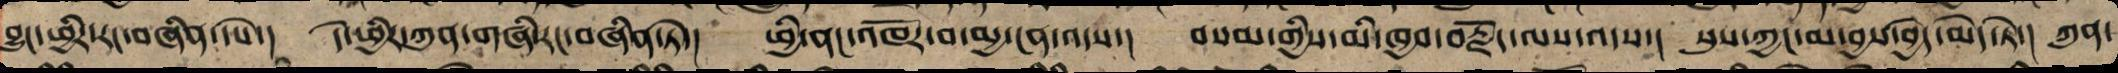བྱུང་ཕྱིར་རང་བཞིན་དཔེ་། དེ་ཕྱིར་ཀུན་གཞི་རང་བཞིན་ཏེ་། ཕྱི་ནང་འཁོར་བ་མྱ་ངན་འདས་། བསམ་གྱིས་མི་ཁྱབ་བརྗོད་ལས་འདས་། སུས་ཀྱང་མ་བྱས་བྱེད་མེད་ཏེ་། ཀུན་
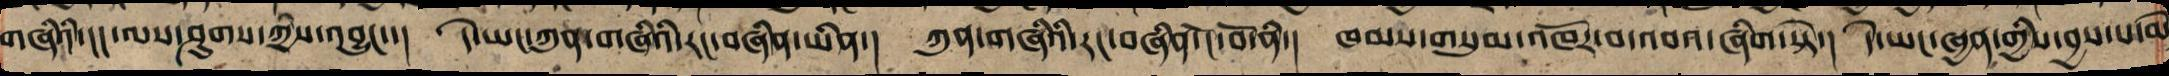གཞིའི་ངང་ལས་ཤུགས་ཀྱིས་འབྱུང་་། དེ་ཡང་ཀུན་གཞིའི་རང་བཞིན་ཡིན་། ཀུན་གཞིའི་རང་བཞིན་ངོ་བོ་ནི་། ཁམས་གསུམ་འཁོར་བ་འབའ་ཞིག་སྟེ་། དེ་ཡང་ཞྱན་གྱིས་བྱས་པ་མེ
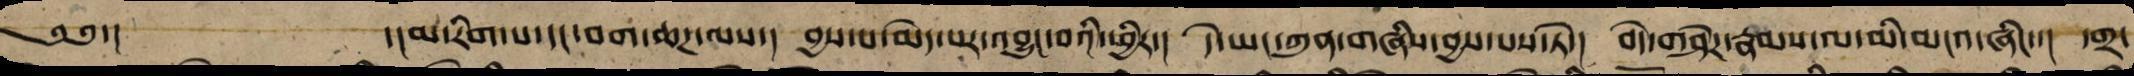༄༅་། ་།མ་རིག་པ་དང་བག་ཆཌ་ལས་། བྱས་པ་མེད་པར་འབྱུང་བའི་ཕྱིར་། དེ་ཡང་ཀུན་གཞིས་བྱས་པ་སྟེ་། བདེར་གཤེཌ་རྣམས་ལ་མི་མངའ་ཞིང་་། དགྲ་
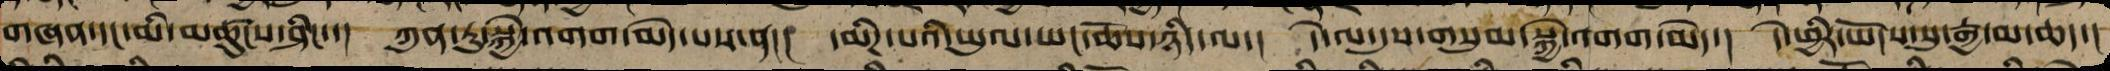གཞན་དང་མི་མཚུངས་ཤིང་་། ཀུན་ཏུ་སྐྱེ་འགགས་མེད་པས་ན་། དམིཌ་པའི་ཡུལ་ཡང་ཆོས་ཉིད་ལ་། དེ་ལ་དུས་གསུམ་སྐྱེ་འགགས་མེད་། དེ་ཕྱིར་ཡོངས་སུ་རྒྱ་མ་ཆད་།
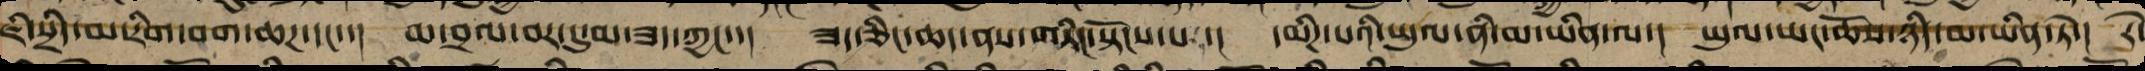ཇི་སྲིད་མ་རིག་བག་ཆཌ་དང་་། མ་བྲལ་བར་དུ་མ་ཟད་ཀྱང་་། ཟད་ཅིང་ཆད་ནས་གཏིང་སྟོངས་པར་། དམིཌ་པའི་ཡུལ་ནི་མ་ཡིན་ལ་། ཡུལ་ཡང་ཆོས་ཉིད་མ་ཡིན་ཏེ་། རེ་
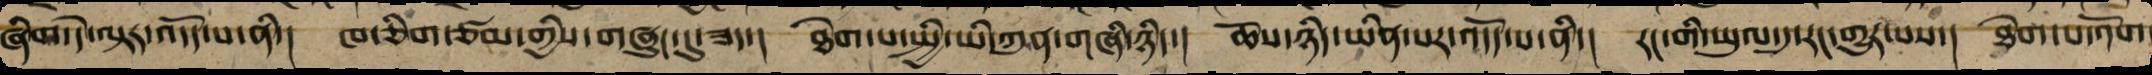ཞིག་དེ་ལྟར་འདོད་པ་ནི་། ཁ་ཅིག་ཙམ་གྱི་གཞུང་དུ་ཟད་། ཐེག་པ་སྤྱི་ཡི་ཀུན་གཞི་ཉིད་། ཆོས་ཉིད་ཡིན་པར་འདོད་པ་ནི་། རང་གི་ཡུལ་དུ་རང་གྱུར་པས་། ཐེག་པ་འོག
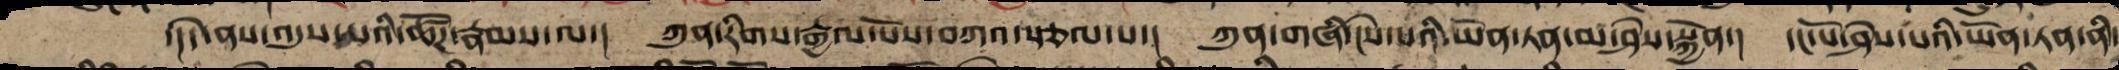་།།དེ་ནས་འདུས་པའི་ཚོཌ་རྣམས་ལ་། ཀུན་རིག་རྒྱལ་པོས་བཀའ་སྩལ་པ་། ཀུན་གཞི་ངེས་པའི་ཡོན་ཏན་མ་ཤེས་སྐྱོན་། དང་པོ་ཤེས་པའི་ཡོན་ཏན་ནི་
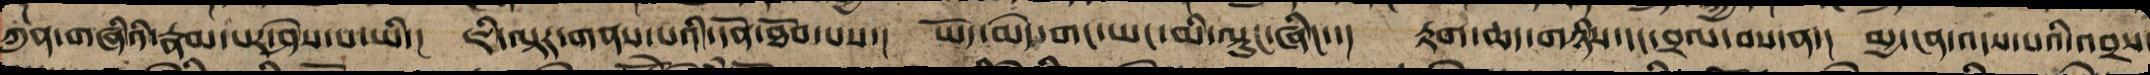ཀུན་གཞིའི་རྣམ་པར་ཤེས་པ་ཡི་། ཇི་ལྟར་གནས་པའི་དོན་ཐོབ་པས་། ཡོད་མེད་གང་ཡང་མི་ལྟུང་ཞིང་་། རྟག་ཆད་གཉིས་དང་བྲལ་བས་ན་། མྱ་ངན་འདས་པའི་འབྲས
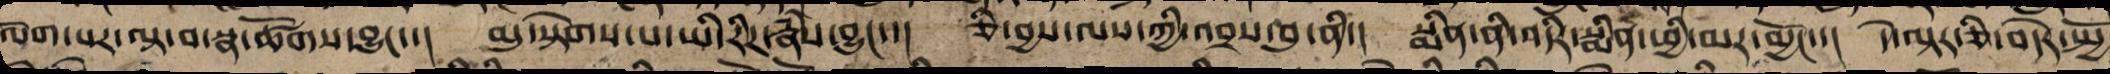ལོག་པར་ལྟ་བ་སྣ་ཚོགས་བྱུང་་། མུ་སྟེགས་ཆད་པའི་རིཌ་རྣཾས་བྱུང་་། ཅི་བྱས་ལས་ཀྱི་འབྲས་བུ་ནི་། སྨིན་ནི་འདིར་སྨིན་ཕྱི་མར་མྱོང་་། དེ་ལྟར་ཅི་བདེར་སྤྱོ
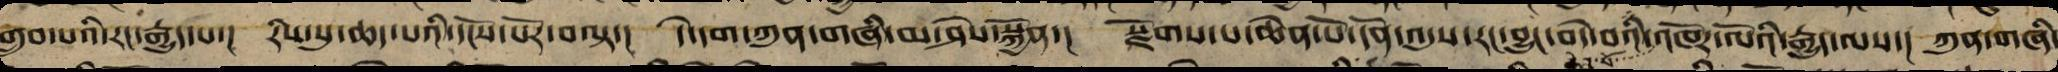གྲུབ་པའི་རང་རྒྱུད་པ་། རིས་སུ་ཆད་པའི་དངོས་པོར་བལྟ་། དེ་དག་ཀུན་གཞི་མ་ཤེས་སྐྱོན་། སྫོགས་པ་ཆེན་པོ་དོན་འདུས་རང་བྱུང་བདེ་བ་ཆེན་པོ་འཁོར་ལོའི་རྒྱུད་ལས་། ཀུན་གཞི་
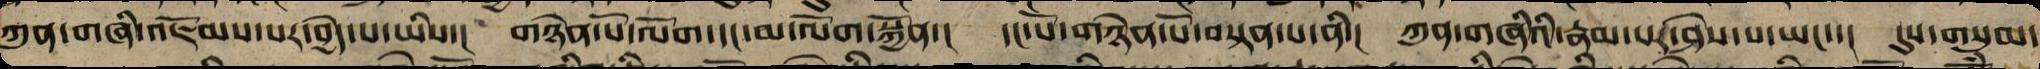ཀུན་གཞི་འཇོམས་པར་བྱེད་པ་ཡི་། གཉེན་པོ་ལོག་དང་མ་ལོག་སྐྱོན་། དང་པོ་གཉེན་པོ་བསྟན་པ་ནི་། ཀུན་གཞིའི་རྣམ་པར་ཤེས་པ་ཡང་་། དུས་གསུམ་
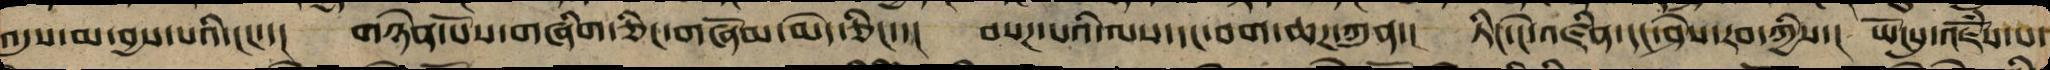འདུས་མ་བྱས་པའི་ངང་་། གཉེན་པོས་གཞིག་ཅིང་གཞོམ་མེད་ཅིང་་། བསཌ་པའི་ལས་དང་བག་ཆཌ་ཀུན་། ཏིང་ངེ་འཛིན་དང་ཤེས་རབ་ཀྱིས་། ཡོངསུ་འཇོཾས་པ་
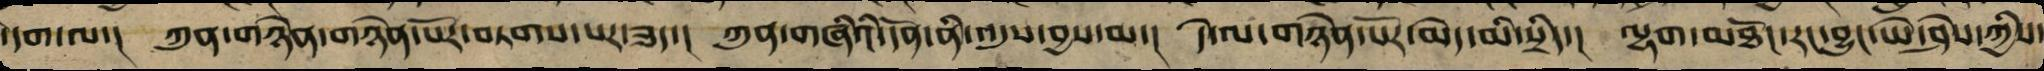དེ་དག་ལ་། ཀུན་གཉེའི་གཉེན་པོར་བཏགས་པར་ཟད་། ཀུན་གཞིའི་དོན་ནི་འདུས་བྱས་མ་། དེ་ལ་གཉེན་པོ་མེད་མི་སྲིད་། ལྷག་མཐོང་རང་བྱུང་ཡེ་ཤེས་ཀྱིས་
